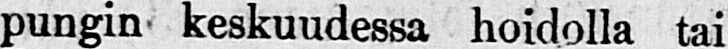pungin keskuudessa hoidolla tai
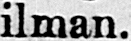ilman.
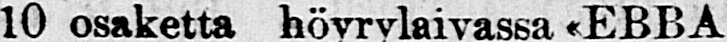10 osaketta höyrylaivassa «EBBA
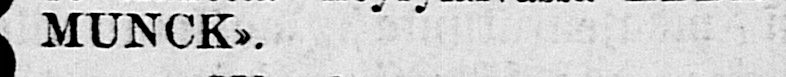MUNCK».
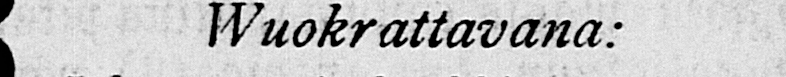Wuokrattavana:
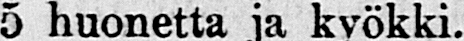5 huonetta ja kyökki.
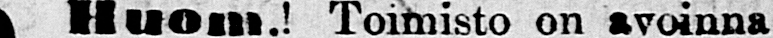Huom.! Toimisto on avoinna
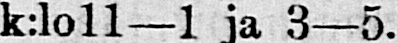k:lo 11—1 ja 3 —5.
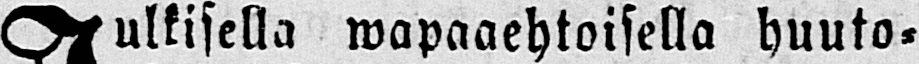Julkisella wapaaehtoisella huuto-
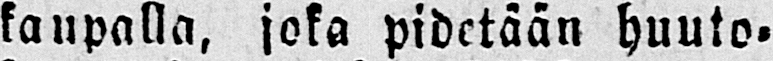kaupalla, joka pidetään huuto-
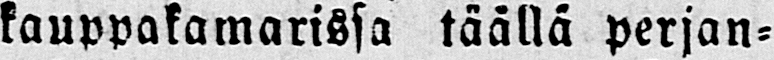kauppakamarissa täällä perjan-
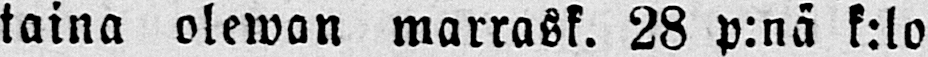taina olewan marrask. 28 p:nä k:lo
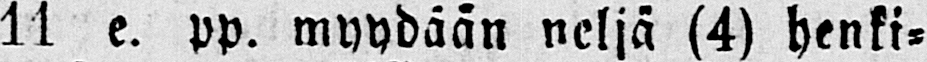11 e. pp. myydään neljä (4) henki-
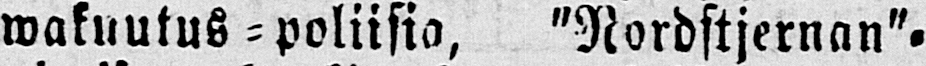wakuutus - poliisia, "Nordstjernan"
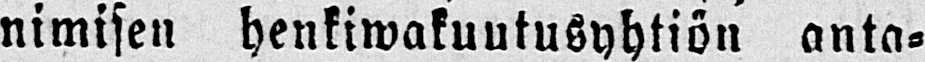nimisen henkiwakuutusyhtiön anta-
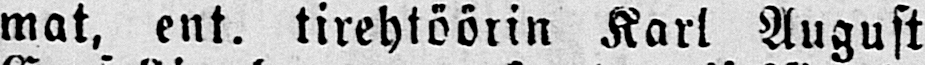mat, ent. tirehtöörin Karl August
